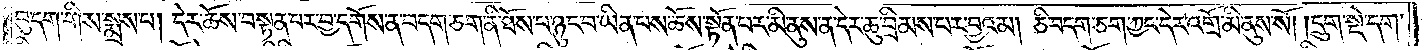བུ་དག་གིས་སྨྲས་པ། དེར་ཆོས་བསྟན་པར་བྱ་དགོས་ན་བདག་ཅག་ནི་ཐོས་པ་ཉུང་བ་ཡིན་པས་ཆོས་སྟོན་པར་མི་ནུས་ན་དེར་ཆུ་བྲིམས་པར་བྱའམ། ཅི་བདག་ཅག་ཀྱང་དེར་འགྲོ་མི་ནུས་སོ། །དྲུག་སྡེ་དག་
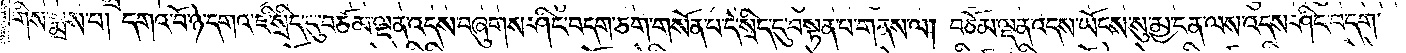གིས་སྨྲས་པ། དགའ་བོ་ཉེ་དགའ་ཇི་སྲིད་དུ་བཅོམ་ལྡན་འདས་བཞུགས་ཤིང་བདག་ཅག་གསོན་པ་དེ་སྲིད་དུ་བསྟན་པ་གནས་ལ། བཅོམ་ལྡན་འདས་ཡོངས་སུ་མྱ་ངན་ལས་འདས་ཤིང་བདག་
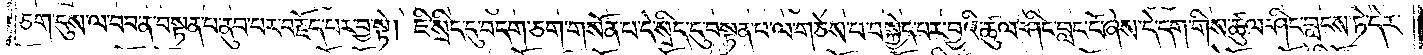ཅག་དུས་ལ་བབ་ན་བསྟན་པ་ནུབ་པར་བརྗོད་པར་བྱ་སྟེ། ཇི་སྲིད་དུ་བདག་ཅག་གསོན་པ་དེ་སྲིད་དུ་བསྟན་པ་ལ་གཅེས་པ་བསྐྱེད་པར་བྱའི་ཚུལ་ཤིང་བླང་ངོ་ཞེས་དེ་དག་གིས་ཚུལ་ཤིང་བླངས་ཏེ་དེར་
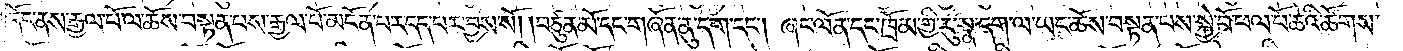དོང་ནས་རྒྱལ་པོ་ལ་ཆོས་བསྟན་པས་རྒྱལ་པོ་མངོན་པར་དད་པར་བྱས་སོ། །བཙུན་མོ་དང་གཞོན་ནུ་དག་དང༌། ཞང་ལོན་དང་ཁྲོམ་གྱི་རུ་སྣ་དག་ལ་ཡང་ཆོས་བསྟན་པས་སྐྱེ་བོ་ཕལ་པོ་ཆེའི་ཚོགས་
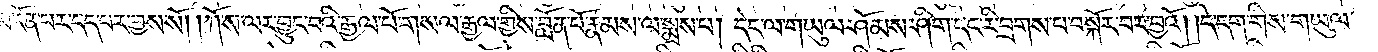མངོན་པར་དད་པར་བྱས་སོ། །ཀོ་ས་ལར་བྱུང་བའི་རྒྱལ་པོ་གསལ་རྒྱལ་གྱིས་བློན་པོ་རྣམས་ལ་སྨྲས་པ། དེང་ལ་གཡུལ་ཤོམས་ཤིག་དང་རི་བྲགས་པ་བསྐོར་བར་བྱའོ། །དེ་དག་གིས་གཡུལ་
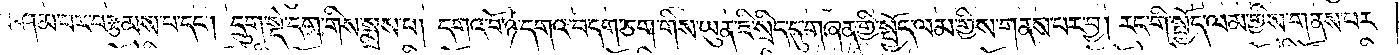བཤམ་པར་བརྩམས་པ་དང༌། དྲུག་སྡེ་དག་གིས་སྨྲས་པ། དགའ་བོ་ཉེ་དགའ་བདག་ཅག་གིས་ཡུན་ཇི་སྲིད་དུ་གཞན་གྱི་སྤྱོད་ལམ་གྱིས་གནས་པར་བྱ། རང་གི་སྤྱོད་ལམ་གྱིས་གནས་པར་
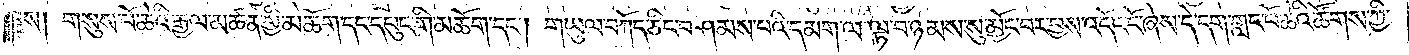བྱས། གསུས་པོ་ཆེའི་རྒྱལ་མཚན་གྱི་མཆོག་དང་དཔུང་གི་མཆོག་དང༌། གཡུལ་བཀོད་ཅིང་བཤམས་པའི་དམག་ལ་ལྟ་བ་ཉམས་སུ་མྱོང་བར་བྱས་འདོང་ངོ་ཞེས་དེ་དག་གླང་པོ་ཆེའི་ཚོགས་ཀྱི་
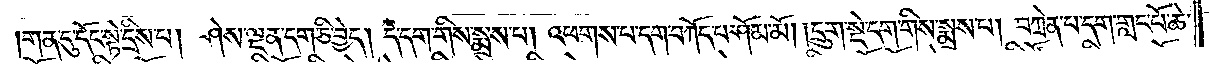གན་དུ་དོང་སྟེ་དྲིས་པ། ཤེས་ལྡན་དག་ཅི་བྱེད། དེ་དག་གིས་སྨྲས་པ། འཕགས་པ་དག་བཀོད་པ་ཤོམ་མོ། །དྲུག་སྡེ་དག་གིས་སྨྲས་པ། བཀྲེན་པ་དག་གླང་པོ་ཆེ་
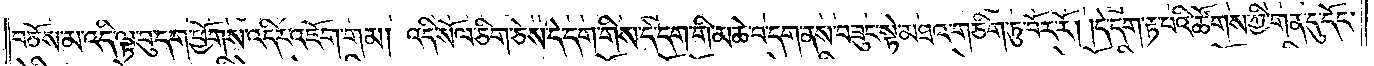བཅོས་མ་འདི་ལྟ་བུ་དག་ཕྱོགས་འདིར་འཇོག་གམ། འདི་སོལ་ཅིག་ཅེས་དེ་དག་གིས་དེ་དག་གི་མཆེ་བ་དག་ནས་བཟུང་སྟེ་མཐའ་གཅིག་ཏུ་བོར་རོ། །དེ་དག་རྟ་པའི་ཚོགས་ཀྱི་གན་དུ་དོང་
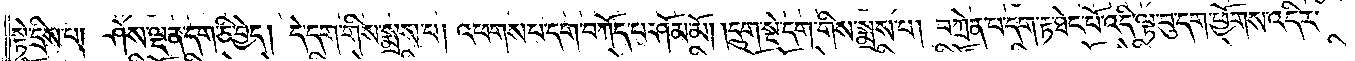སྟེ་དྲིས་པ། ཤེས་ལྡན་དག་ཅི་བྱེད། དེ་དག་གིས་སྨྲས་པ། འཕགས་པ་དག་བཀོད་པ་ཤོམ་མོ། །དྲུག་སྡེ་དག་གིས་སྨྲས་པ། བཀྲེན་པ་དག་རྟ་ཐེང་པོ་འདི་ལྟ་བུ་དག་ཕྱོགས་འདིར་
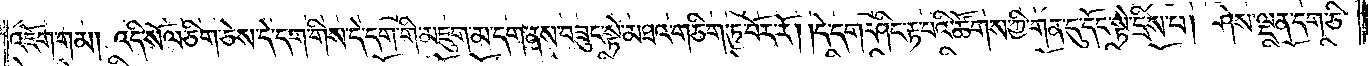འཇོག་གམ། འདི་སོལ་ཅིག་ཅེས་དེ་དག་གིས་དེ་དག་གི་མཇུག་མ་དག་ནས་བཟུང་སྟེ་མཐའ་གཅིག་ཏུ་བོར་རོ། །དེ་དག་ཤིང་རྟ་པའི་ཚོགས་ཀྱི་གན་དུ་དོང་སྟེ་དྲིས་པ། ཤེས་ལྡན་དག་ཅི་
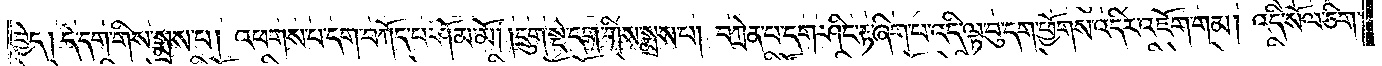བྱེད། དེ་དག་གིས་སྨྲས་པ། འཕགས་པ་དག་བཀོད་པ་ཤོམ་མོ། །དྲུག་སྡེ་དག་གིས་སྨྲས་པ། བཀྲེན་པ་དག་ཤིང་རྟ་ཞིག་པ་འདི་ལྟ་བུ་དག་ཕྱོགས་འདིར་འཇོག་གམ། འདི་སོལ་ཅིག་
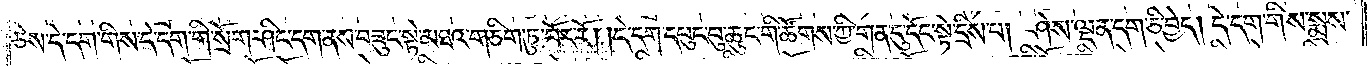ཅེས་དེ་དག་གིས་དེ་དག་གི་སྲོག་ཤིང་དག་ནས་བཟུང་སྟེ་མཐའ་གཅིག་ཏུ་བོར་རོ། །དེ་དག་དཔུང་བུ་ཆུང་གི་ཚོགས་ཀྱི་གན་དུ་དོང་སྟེ་དྲིས་པ། ཤེས་ལྡན་དག་ཅི་བྱེད། དེ་དག་གིས་སྨྲས་
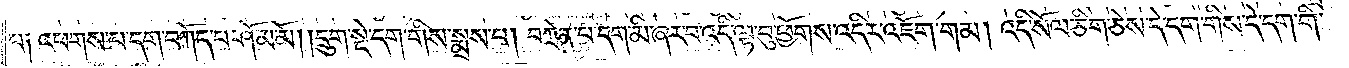པ༑ འཕགས་པ་དག་བཀོད་པ་ཤོམ་མོ། །དྲུག་སྡེ་དག་གིས་སྨྲས་པ། བཀྲེན་པ་དག་མི་ཞར་བ་འདི་ལྟ་བུ་ཕྱོགས་འདིར་འཇོག་གམ། འདི་སོལ་ཅིག་ཅེས་དེ་དག་གིས་དེ་དག་གི་
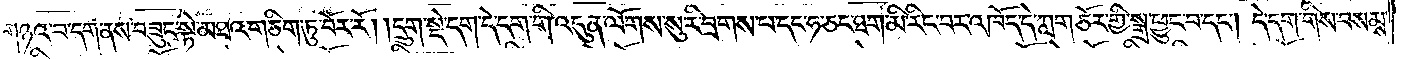གཉའ་བ་དག་ནས་བཟུང་སྟེ་མཐའ་གཅིག་ཏུ་བོར་རོ། །དྲུག་སྡེ་དག་དེ་དག་གི་འདུན་ལོགས་སུ་རི་བྲགས་པ་དང་ཧ་ཅང་ཐག་མི་རིང་བར་འཁོད་དེ་ཀླག་ཅོར་གྱི་སྒྲ་ཕྱུང་བ་དང༌། དེ་དག་གིས་བསམས་
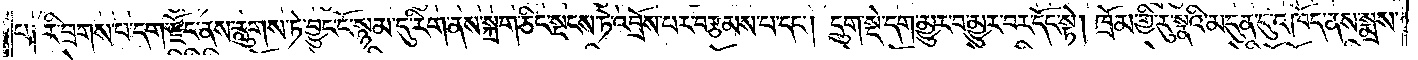པ༑ རི་བྲགས་པ་དག་རྫོང་ནས་རླུགས་ཏེ་བྱུང་ངོ་སྙམ་དུ་རིག་ནས་སྐྲག་ཅིང་སྡངས་ཏེ་འབྲོས་པར་བརྩམས་པ་དང༌། དྲུག་སྡེ་དག་མྱུར་བ་མྱུར་བར་དོང་སྟེ། ཁྲོམ་གྱི་རུ་སྣའི་མདུན་དུ་འཁོད་ནས་སྨྲས་
